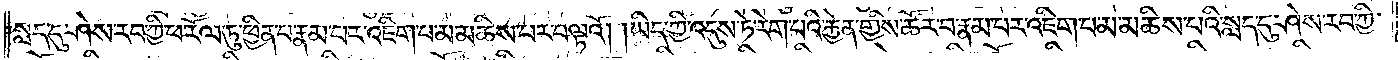སླད་དུ་ཤེས་རབ་ཀྱི་ཕ་རོལ་ཏུ་ཕྱིན་པ་རྣམ་པར་འཇིག་པ་མ་མཆིས་པར་བལྟའོ། །ཡིད་ཀྱི་འདུས་ཏེ་རེག་པའི་རྐྱེན་གྱིས་ཚོར་བ་རྣམ་པར་འཇིག་པ་མ་མཆིས་པའི་སླད་དུ་ཤེས་རབ་ཀྱི་
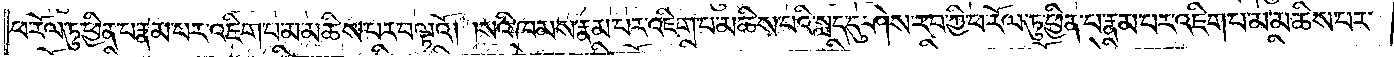ཕ་རོལ་ཏུ་ཕྱིན་པ་རྣམ་པར་འཇིག་པ་མ་མཆིས་པར་བལྟའོ། །སའི་ཁམས་རྣམ་པར་འཇིག་པ་མ་མཆིས་པའི་སླད་དུ་ཤེས་རབ་ཀྱི་ཕ་རོལ་ཏུ་ཕྱིན་པ་རྣམ་པར་འཇིག་པ་མ་མཆིས་པར་
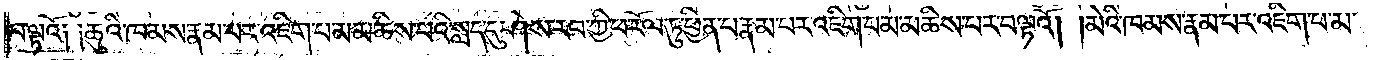བལྟའོ༑ ༑ཆུའི་ཁམས་རྣམ་པར་འཇིག་པ་མ་མཆིས་པའི་སླད་དུ་ཤེས་རབ་ཀྱི་ཕ་རོལ་ཏུ་ཕྱིན་པ་རྣམ་པར་འཇིག་པ་མ་མཆིས་པར་བལྟའོ། །མེའི་ཁམས་རྣམ་པར་འཇིག་པ་མ་
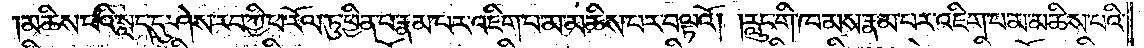མཆིས་པའི་སླད་དུ་ཤེས་རབ་ཀྱི་ཕ་རོལ་ཏུ་ཕྱིན་པ་རྣམ་པར་འཇིག་པ་མ་མཆིས་པར་བལྟའོ། །རླུང་གི་ཁམས་རྣམ་པར་འཇིག་པ་མ་མཆིས་པའི་
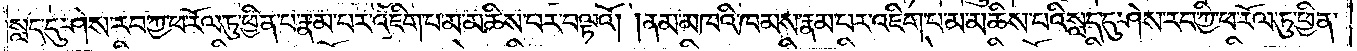སླད་དུ་ཤེས་རབ་ཀྱི་ཕ་རོལ་ཏུ་ཕྱིན་པ་རྣམ་པར་འཇིག་པ་མ་མཆིས་པར་བལྟའོ། །ནམ་མཁའི་ཁམས་རྣམ་པར་འཇིག་པ་མ་མཆིས་པའི་སླད་དུ་ཤེས་རབ་ཀྱི་ཕ་རོལ་ཏུ་ཕྱིན་
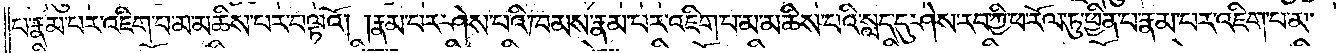པ་རྣམ་པར་འཇིག་པ་མ་མཆིས་པར་བལྟའོ། །རྣམ་པར་ཤེས་པའི་ཁམས་རྣམ་པར་འཇིག་པ་མ་མཆིས་པའི་སླད་དུ་ཤེས་རབ་ཀྱི་ཕ་རོལ་ཏུ་ཕྱིན་པ་རྣམ་པར་འཇིག་པ་མ་
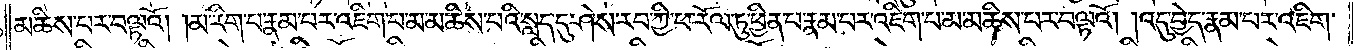མཆིས་པར་བལྟའོ། །མ་རིག་པ་རྣམ་པར་འཇིག་པ་མ་མཆིས་པའི་སླད་དུ་ཤེས་རབ་ཀྱི་ཕ་རོལ་ཏུ་ཕྱིན་པ་རྣམ་པར་འཇིག་པ་མ་མཆིས་པར་བལྟའོ། །འདུ་བྱེད་རྣམ་པར་འཇིག་
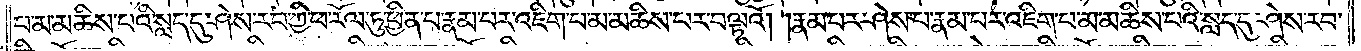པ་མ་མཆིས་པའི་སླད་དུ་ཤེས་རབ་ཀྱི་ཕ་རོལ་ཏུ་ཕྱིན་པ་རྣམ་པར་འཇིག་པ་མ་མཆིས་པར་བལྟའོ། །རྣམ་པར་ཤེས་པ་རྣམ་པར་འཇིག་པ་མ་མཆིས་པའི་སླད་དུ་ཤེས་རབ་
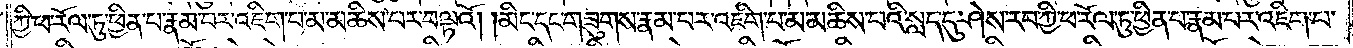ཀྱི་ཕ་རོལ་ཏུ་ཕྱིན་པ་རྣམ་པར་འཇིག་པ་མ་མཆིས་པར་བལྟའོ། །མིང་དང་གཟུགས་རྣམ་པར་འཇིག་པ་མ་མཆིས་པའི་སླད་དུ་ཤེས་རབ་ཀྱི་ཕ་རོལ་ཏུ་ཕྱིན་པ་རྣམ་པར་འཇིག་པ་
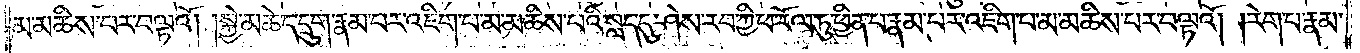མ་མཆིས་པར་བལྟའོ། །སྐྱེ་མཆེད་དྲུག་རྣམ་པར་འཇིག་པ་མ་མཆིས་པའི་སླད་དུ་ཤེས་རབ་ཀྱི་ཕ་རོལ་ཏུ་ཕྱིན་པ་རྣམ་པར་འཇིག་པ་མ་མཆིས་པར་བལྟའོ། །རེག་པ་རྣམ་
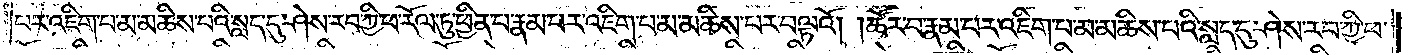པར་འཇིག་པ་མ་མཆིས་པའི་སླད་དུ་ཤེས་རབ་ཀྱི་ཕ་རོལ་ཏུ་ཕྱིན་པ་རྣམ་པར་འཇིག་པ་མ་མཆིས་པར་བལྟའོ། །ཚོར་བ་རྣམ་པར་འཇིག་པ་མ་མཆིས་པའི་སླད་དུ་ཤེས་རབ་ཀྱི་ཕ་
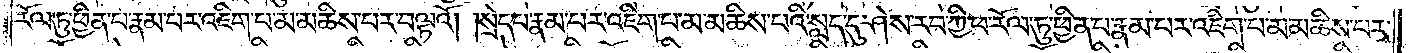རོལ་ཏུ་ཕྱིན་པ་རྣམ་པར་འཇིག་པ་མ་མཆིས་པར་བལྟའོ། །སྲེད་པ་རྣམ་པར་འཇིག་པ་མ་མཆིས་པའི་སླད་དུ་ཤེས་རབ་ཀྱི་ཕ་རོལ་ཏུ་ཕྱིན་པ་རྣམ་པར་འཇིག་པ་མ་མཆིས་པར་
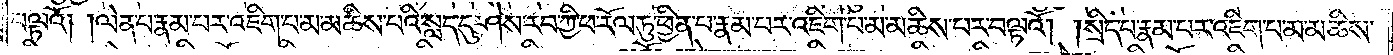བལྟའོ། །ལེན་པ་རྣམ་པར་འཇིག་པ་མ་མཆིས་པའི་སླད་དུ་ཤེས་རབ་ཀྱི་ཕ་རོལ་ཏུ་ཕྱིན་པ་རྣམ་པར་འཇིག་པ་མ་མཆིས་པར་བལྟའོ། །སྲིད་པ་རྣམ་པར་འཇིག་པ་མ་མཆིས་
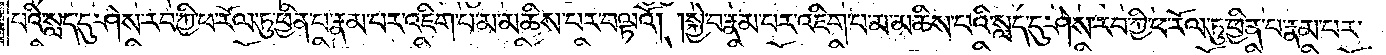པའི་སླད་དུ་ཤེས་རབ་ཀྱི་ཕ་རོལ་ཏུ་ཕྱིན་པ་རྣམ་པར་འཇིག་པ་མ་མཆིས་པར་བལྟའོ། །སྐྱེ་བ་རྣམ་པར་འཇིག་པ་མ་མཆིས་པའི་སླད་དུ་ཤེས་རབ་ཀྱི་ཕ་རོལ་ཏུ་ཕྱིན་པ་རྣམ་པར་
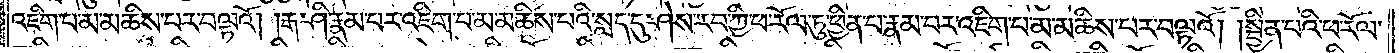འཇིག་པ་མ་མཆིས་པར་བལྟའོ། །རྒ་ཤི་རྣམ་པར་འཇིག་པ་མ་མཆིས་པའི་སླད་དུ་ཤེས་རབ་ཀྱི་ཕ་རོལ་ཏུ་ཕྱིན་པ་རྣམ་པར་འཇིག་པ་མ་མཆིས་པར་བལྟའོ། །སྦྱིན་པའི་ཕ་རོལ་
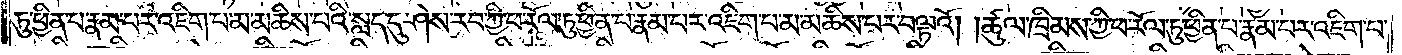ཏུ་ཕྱིན་པ་རྣམ་པར་འཇིག་པ་མ་མཆིས་པའི་སླད་དུ་ཤེས་རབ་ཀྱི་ཕ་རོལ་ཏུ་ཕྱིན་པ་རྣམ་པར་འཇིག་པ་མ་མཆིས་པར་བལྟའོ། །ཚུལ་ཁྲིམས་ཀྱི་ཕ་རོལ་ཏུ་ཕྱིན་པ་རྣམ་པར་འཇིག་པ་
